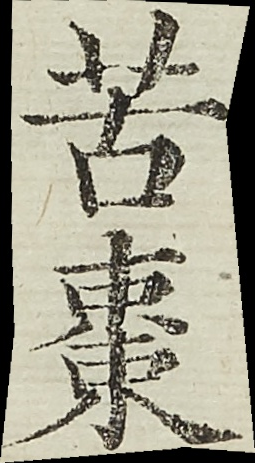苦棗
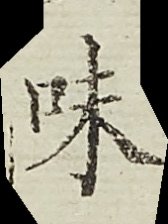味
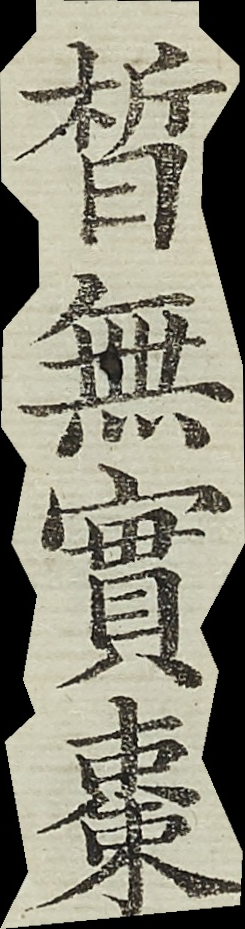皙無實棗
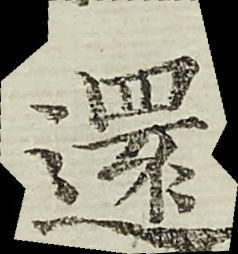還
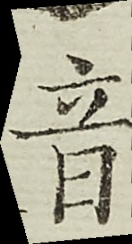音
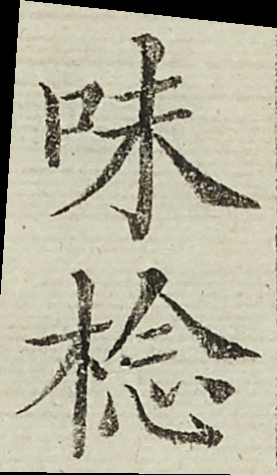味棯
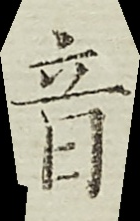音
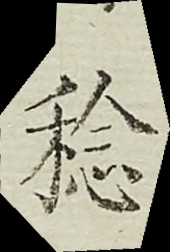稔
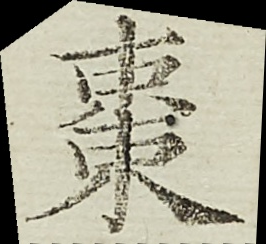棗
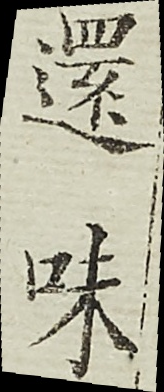還味
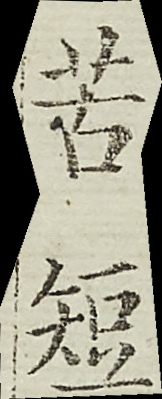苦短
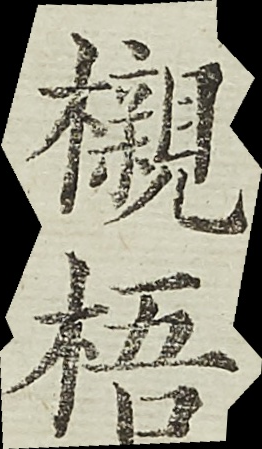櫬梧
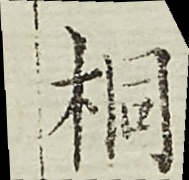桐
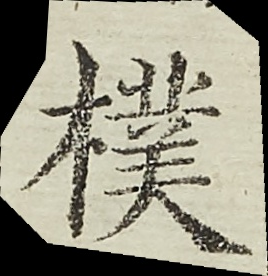樸
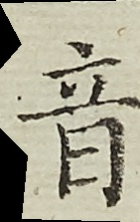音
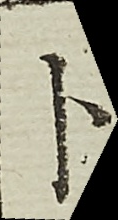卜
